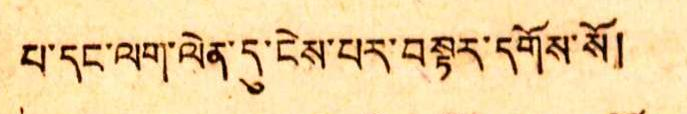པ་དང་ལག་ལེན་དུ་ངེས་པར་བསྟར་དགོས་སོ།
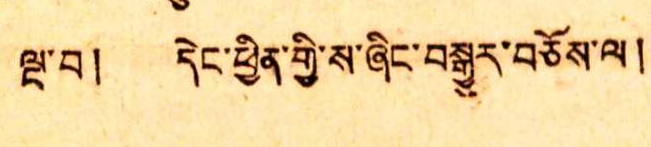ལྡ་བ། དེང་ཕྱིན་གྱི་ས་ཞིང་བསྒྱུར་བཅོས་ལ།
